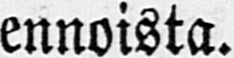ennoista.
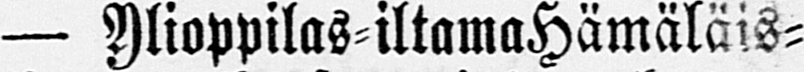— Ylioppilas-iltamaHämäläis-
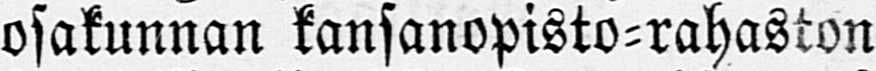osakunnan kansanopisto-rahaston
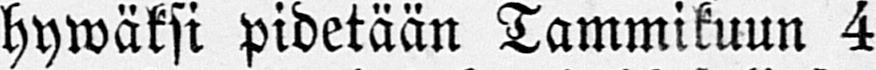hywäksi pidetään Tammikuun 4
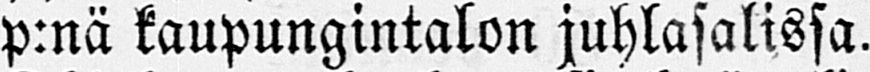p:nä kaupungintalon juhlasalissa.
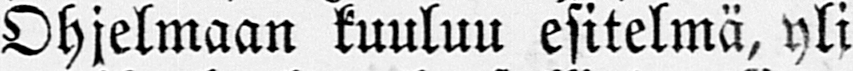Ohjelmaan kuuluu esitelmä, yli
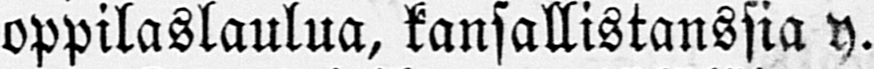oppilaslaulua, kansallistanssia y.
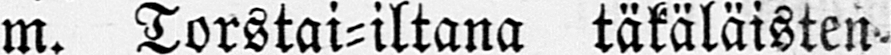m. Torstai-iltana täkäläisten-
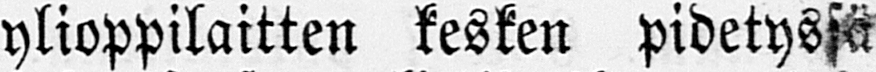ylioppilaitten kesken pidetyssä
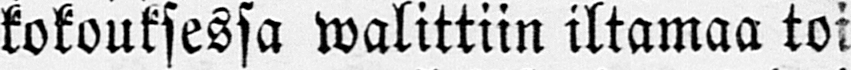kokouksessa walittiin iltamaa toi-
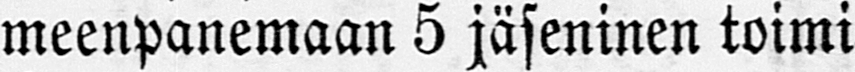meenpanemaan 5 jäseninen toimi-
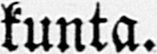kunta.
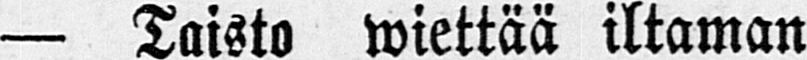— Taisto wiettää iltaman
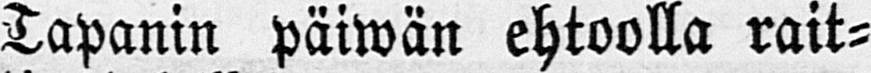Tapanin päiwän ehtoolla rait-
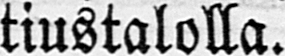tiustalolla.
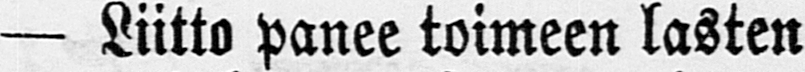— Liitto panee toimeen lasten
